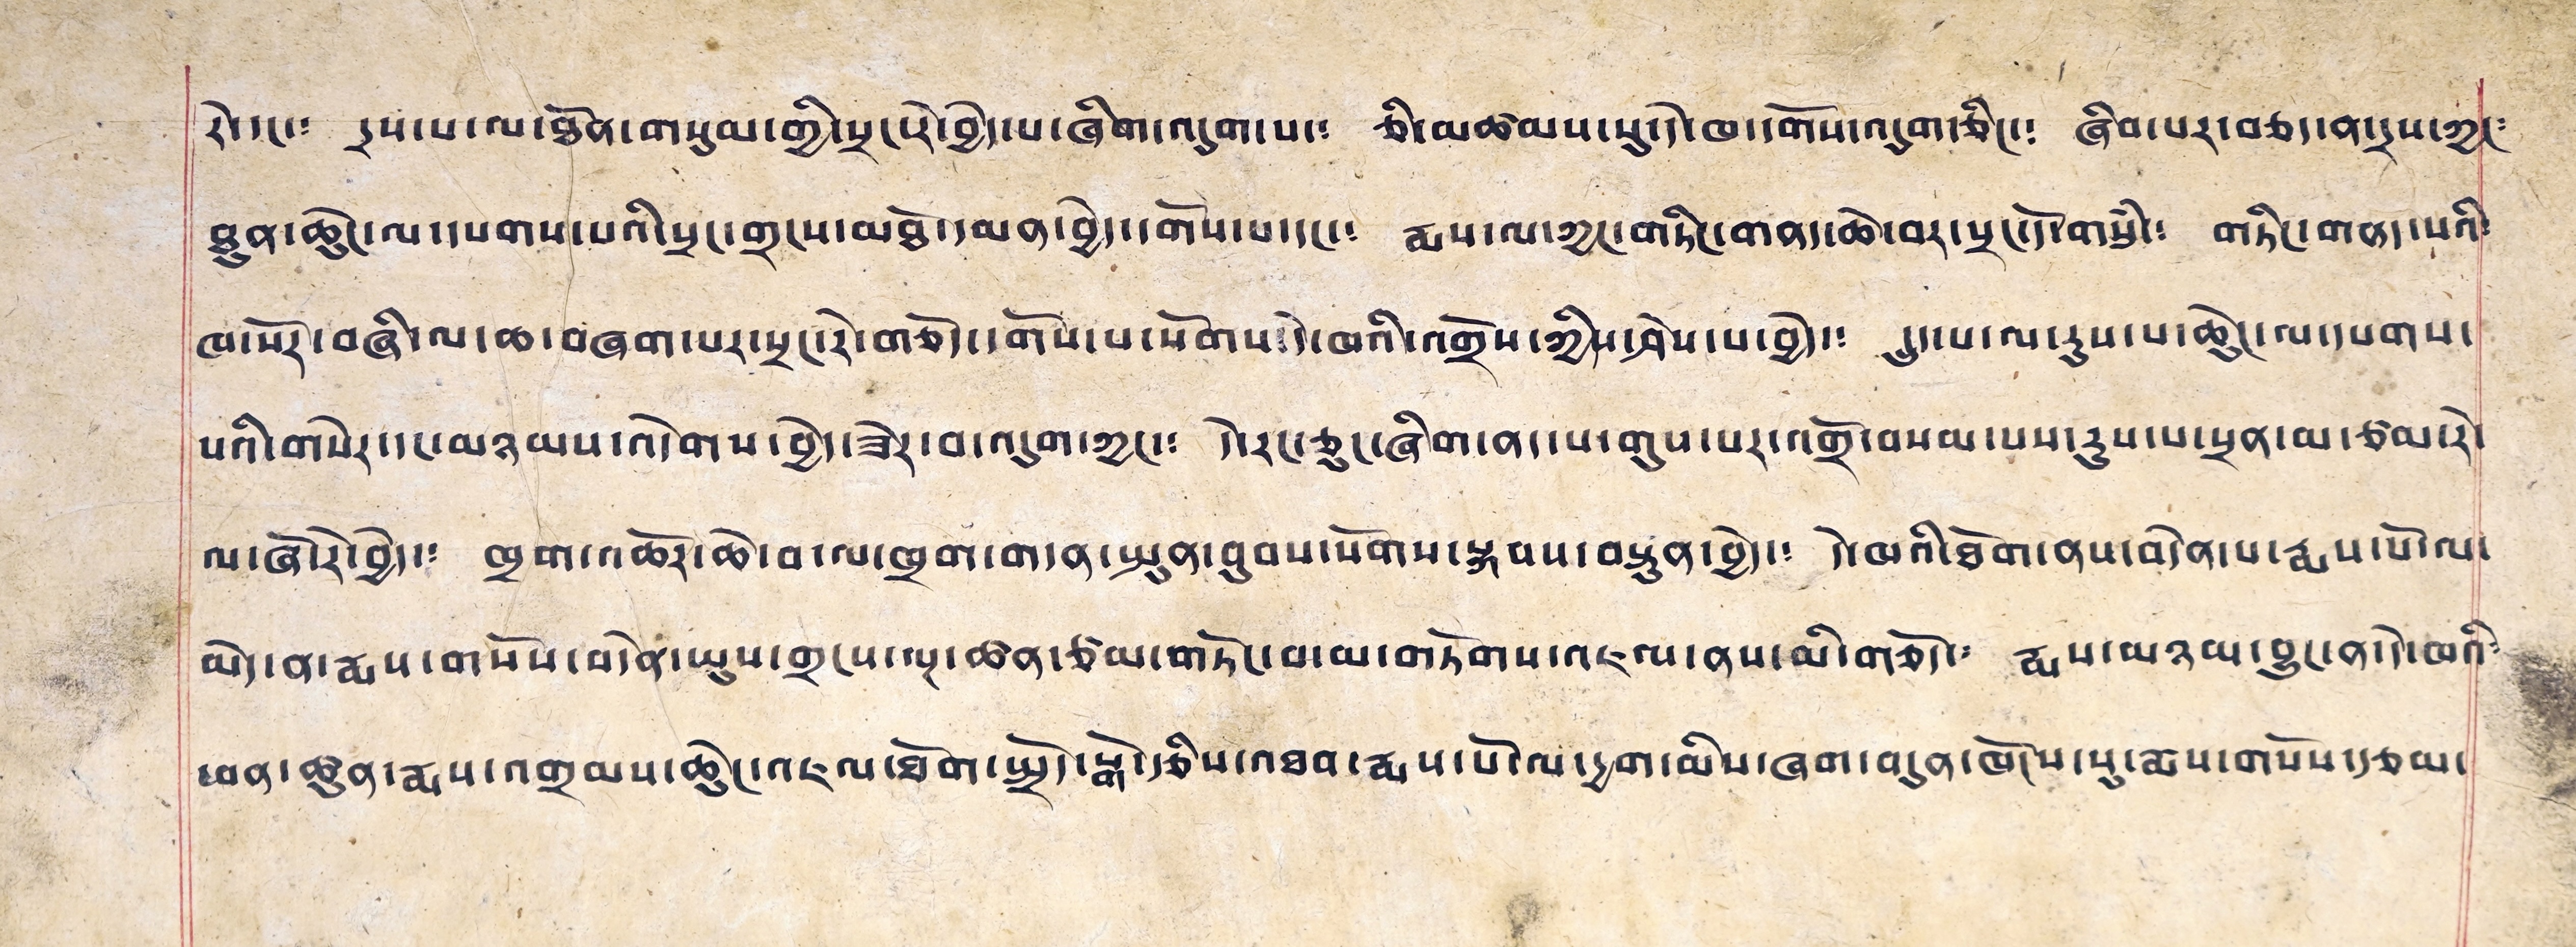རེ་དང་༴ དྲས་པ་ལ་ཐོན་གསུམ་གྱི་སྲང་རེ་བྱེད་པ་ཞིག་འདུག་པ་༴ ཅི་མཚམས་སུ་དེ་ཁ་དགོས་འདུག་ཅིང་༴ ཞིབ་པར་བཅད་ན་དྲས་ཀྱང༴
ཐུན་ཆེུང་ལ་དཔགས་པའི་སྲང་གྲངས་མཐོ་དམན་བྱེད་དགོས་པ་དང་༴ རྨས་ལ་ཀྱང་གཏིང་གནད་ཆེ་བར་སྲང་དོ་གསུཾ་༴ གཏིང་གནད་པའི༴
ཁ་སོར་བཞི་ལ་ཆ་བཞག་པར་སྲང་རེ་གཅོད་དགོས་པ་སོགས་དེ་ཁའི་འགྲོས་ཀྱིས་ཤེས་པ་བྱེད་༴ དྲུད་པ་ལ་རུས་པ་ཆེུང་ལ་དཔགས་
པའི་གསེར་དང་མཉམས་འདེགས་བྱེད་ཟེར་བ་འདུག་ཀྱང་༴ དེ་རང་ཅུང་ཞིག་ནད་པ་གུས་པར་འགྲོ་བསམ་པས་རུས་པ་སྲན་མ་ཙམ་རེ་
ལ་ཞོ་རེ་བྱེད་༴ ཁྲག་འཆོར་ཆེ་བ་ལ་ཁྲག་གདན་སྤུན་བུབས་སོགས་སྐབས་བསྟུན་བྱེད་༴ དེ་ཁའི་ཐོག་ནས་བདེན་པ་རྨས་པོ་ལ་
མེད་ན་རྨས་གསོས་བདེན་ཡུས་གྲངས་ལྔ་ཚན་ཙམ་གཏོང་བ་མ་གཏོགས་འཇལ་ནས་མི་གཅོད་༴ རྨས་མཉམ་བྱུང་ན་དེ་ཁའི༴
ཕན་ཚུན་རྨས་འགྲམས་ཆེུང་འཇལ་ཐོག་སྤྲོད་སྒོ་རྩིས་འཐབ་རྨས་པོ་ལ་དྱག་མིས་ཞག་བདུན་ཁོངས་སུ་རྨས་གསོས་རྩམ་
